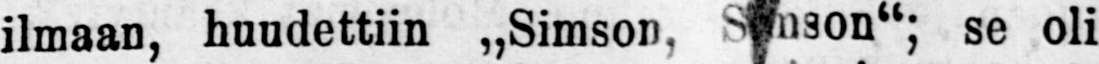ilmaan, huudettiin „Simson, Simson"; se oli
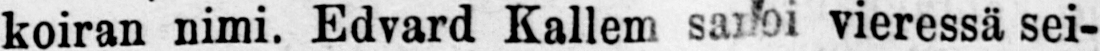koiran nimi. Edvard Kallem sanoi vieressä sei-
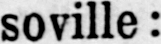soville:
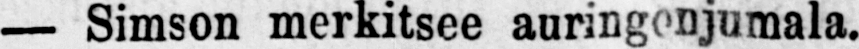— Simson merkitsee auringonjumala.
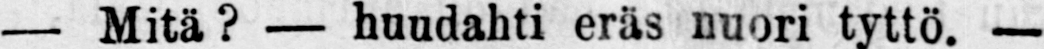— Mitä? — huudahti eräs nuori tyttö. —
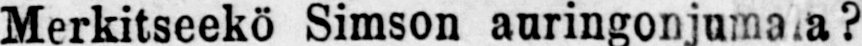Merkitseekö Simson auringonjumala?
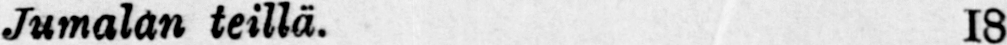Jumalan teillä. 18
